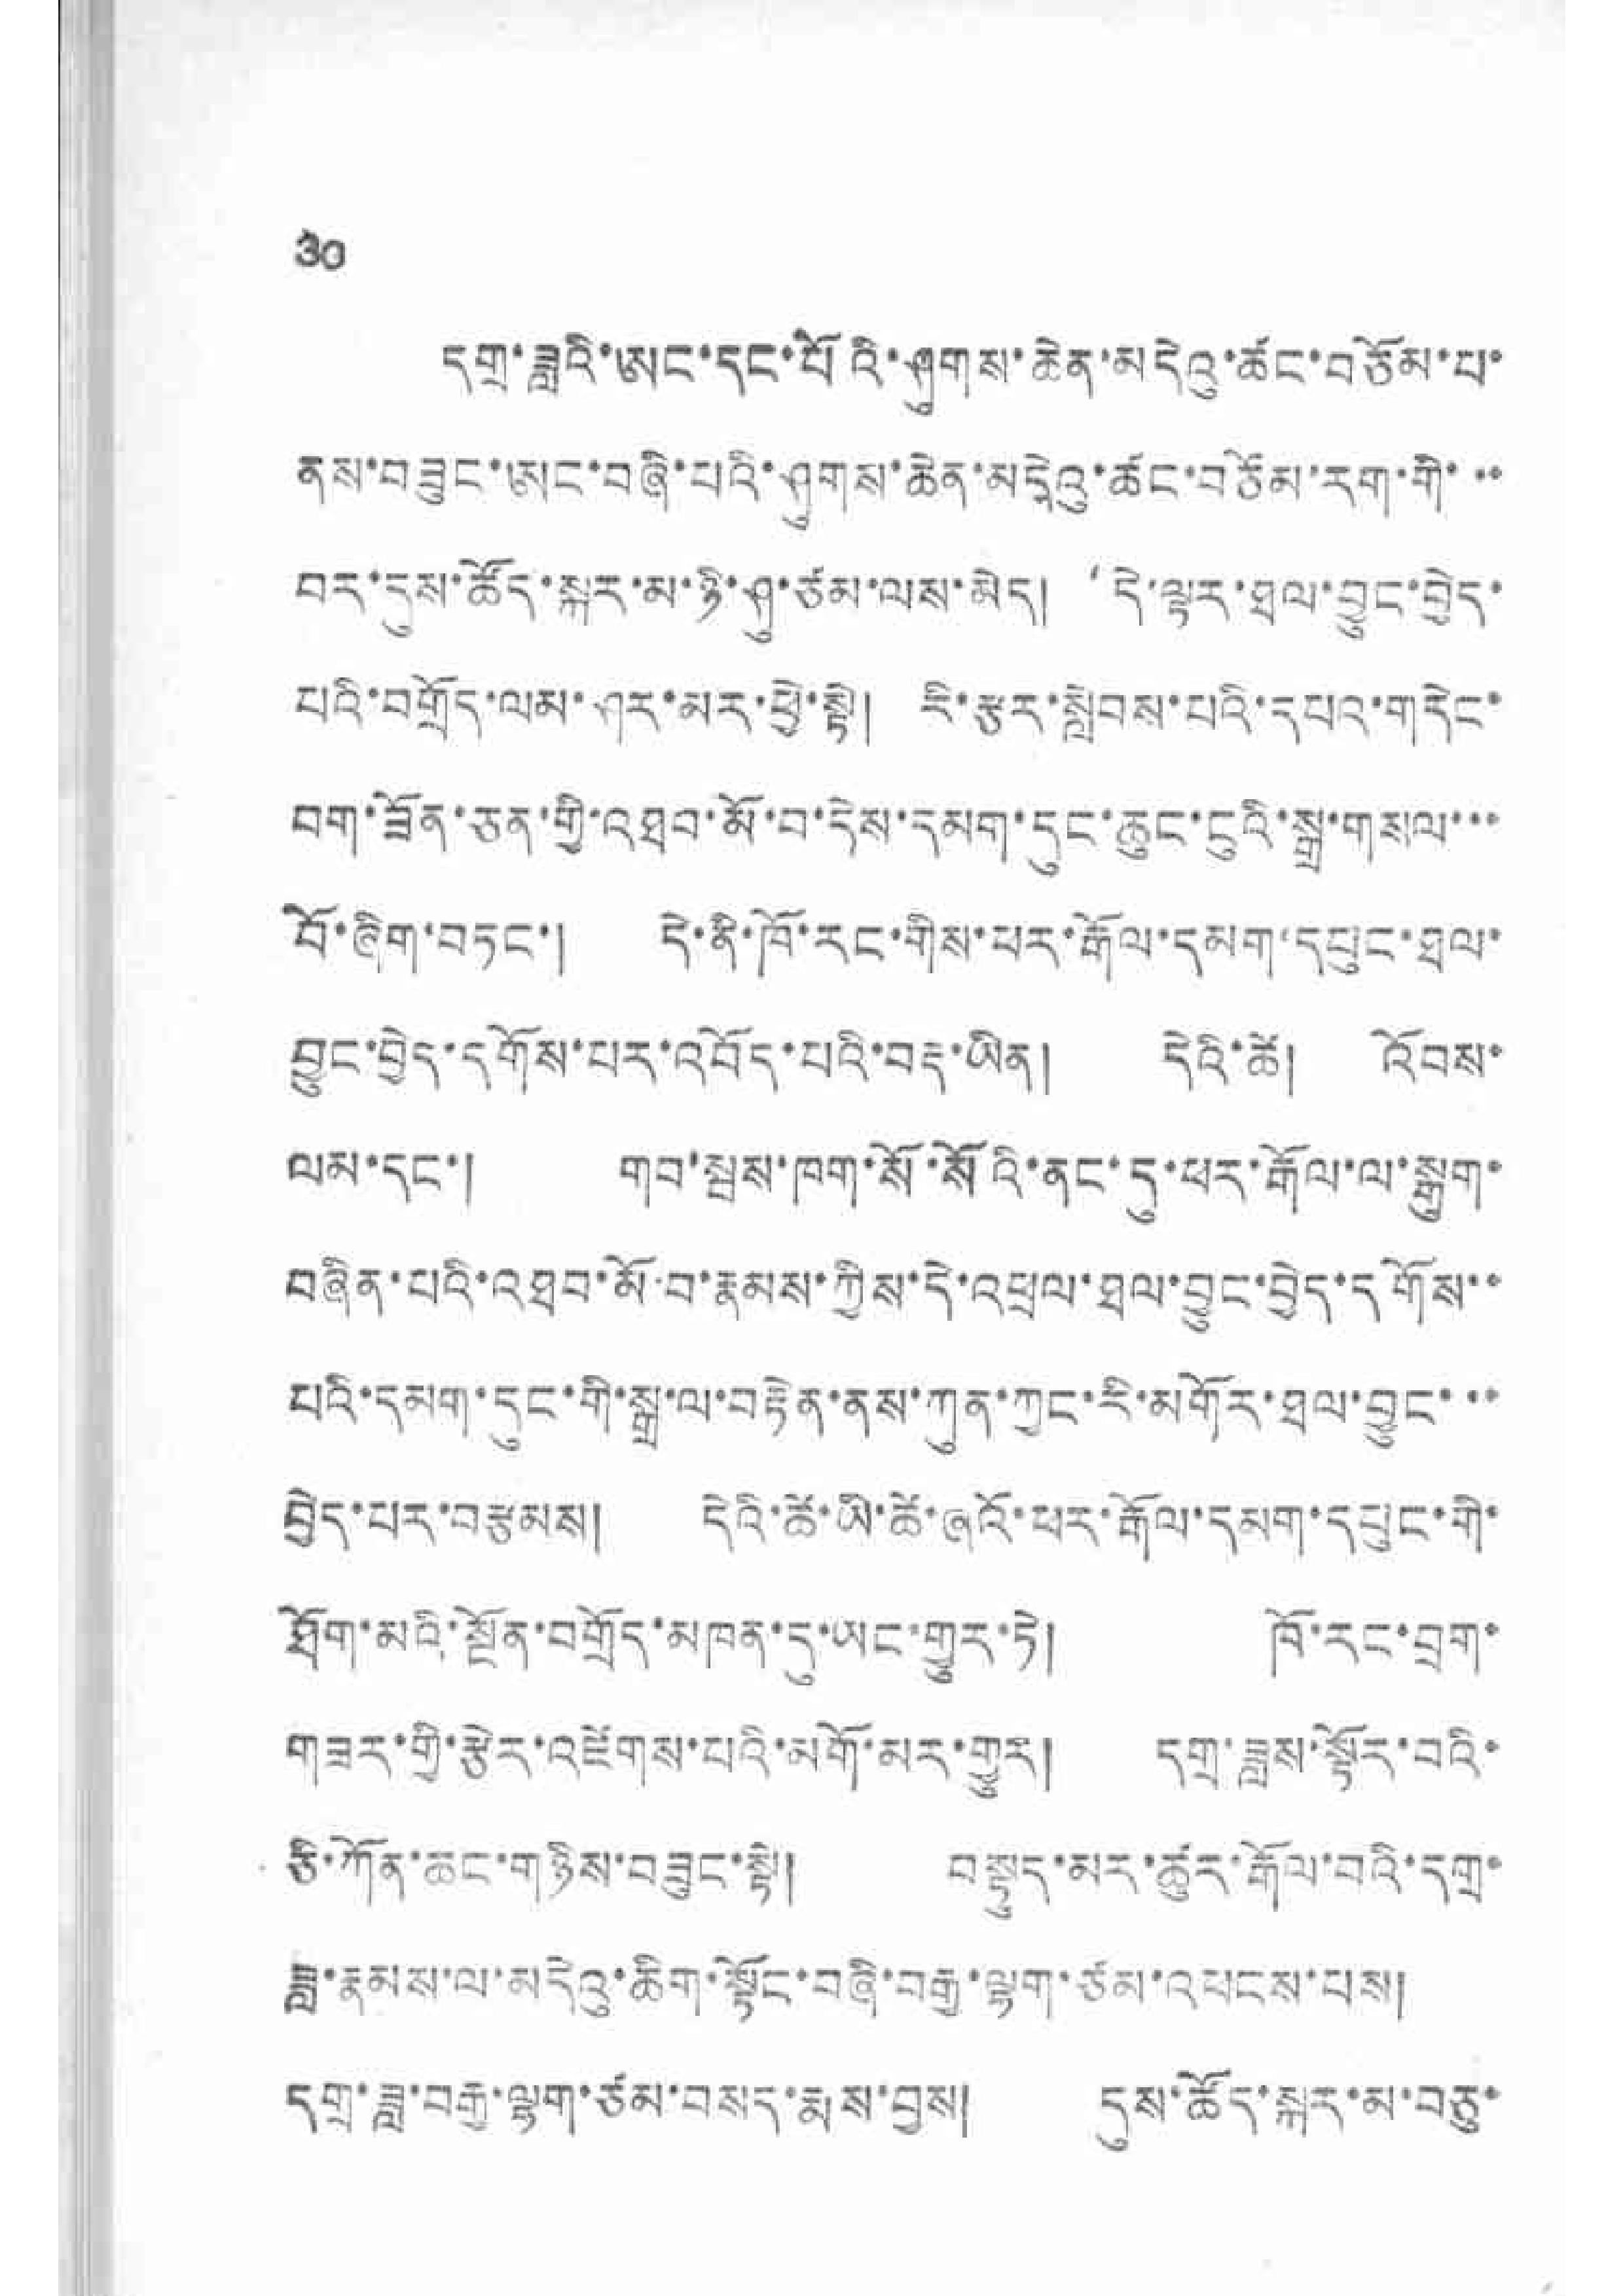30
དགྲ་ཟླའི་ཨང་དང་པོའི་ཤུགས་ཆེན་མདེའུ་ཚང་བཅོམ་པ་
ནས་བཟུང་ཨང་བཞི་པའི་ཤུགས་ཆེན་མདེའུ་ཚང་བཅོམ་རག་གི་་་
བར་དུས་ཚོད་སྐར་མ་ཉི་ཤུ་ཙམ་ལས་མེད། དེ་ལྟར་ཐལ་བྱུང་བྱེད་
པའི་བགྲོད་ལམ་ཤར་མར་ཕྱེ་སྟེ། རི་རྩར་སླེབས་པའི་དཔའ་གདེང་
བག་ཟོན་ཅན་གྱི་འཐབ་མོ་བ་དེས་དམག་དུང་ཆུང་ངུའི་སྒྲ་གསལ་་་
བོ་ཞིག་བཏང་། དེ་ནི་ཁོ་རང་གིས་ཕར་རྒོལ་དམག་དཔུང་ཐལ་
བྱུང་བྱེད་དགོས་པར་འབོད་པའི་བརྡ་ཡིན། དེའི་ཚེ། འོབས་
ལམ་དང་། གབ་སྦས་ཁག་སོ་སོའི་ནང་དུ་ཕར་རྒོལ་ལ་སྒུག་
བཞིན་པའི་འཐབ་མོ་བ་རྣམས་ཀྱིས་དེ་འཕྲལ་ཐལ་བྱུང་བྱེད་དགོས་་
པའི་དམག་དུང་གི་སྒྲ་ལ་བརྟེན་ནས་ཀུན་ཀྱང་རི་མགོར་ཐལ་བྱུང་་་
བྱེད་པར་བརྩམས། དེའི་ཚེ་ཡི་ཚེ་ཞའོ་ཕར་རྒོལ་དམག་དཔུང་གི་
ཐོག་མའི་སྔོན་བགྲོད་མཁན་དུ་ཡང་གྱུར་ཏེ། ཁོ་རང་བྲག་
གཟར་གྱི་རྩེར་འཛེགས་པའི་མགོ་མར་གྱུར། དགྲ་ཟླས་སྟོར་བའི་
ཅི་ཀོན་ཆང་གཉིས་བཟུང་སྟེ། བསྟུད་མར་ཚུར་རྒོལ་བའི་དགྲ་
ཟླ་རྣམས་ལ་མདེའུ་ཆིག་སྟོང་བཞི་བརྒྱ་ལྷག་ཙམ་འཕངས་པས།
དགྲ་ཟླ་བརྒྱ་ལྷག་ཙམ་བསད་རྨས་བྱས། དུས་ཚོད་སྐར་མ་བཅུ་
